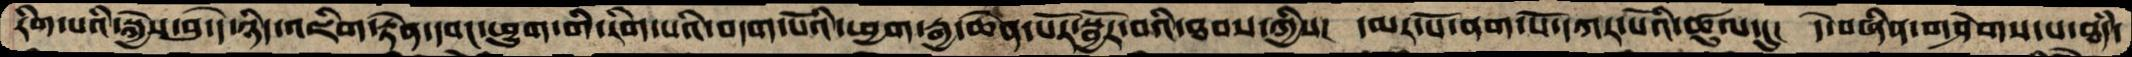རིག་པའི་སྐྱེས་བུ་དེ་ཉིད་འཇིག་རྟེན་དབང་ཕྱུག་གི་རིག་པའི་བདག་པོའི་ཕྱག་རྒྱ་ཆེན་པོར་སྦྱོར་བའི་ཐབས་ཀྱིས།  དམར་པོ་ནག་པོ་དཀར་པོའི་ཚུལ་དུ།  དེ་བཞིན་གཤེགས་པ་ཐཾད་
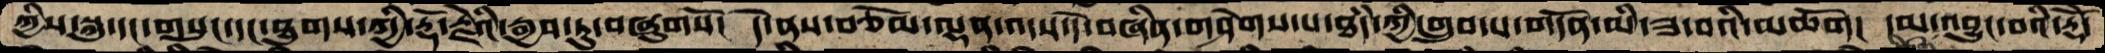ཀྱིས་སྐུ་དང་གསུང་དང་ཐུགས་ཀྱི་རྡོ་རྗེའི་རྒྱབ་ཏུ་བཞུགསོ།  དེ་ནས་བཅོམ་ལྡན་འདས་དེ་བཞིན་གཤེགས་པ་ཐཾད་ཀྱི་གྲུབ་པ་གདོན་མི་ཟ་བའི་མཆོག།  དམ་འབྱུང་བའི་རྡོེ་
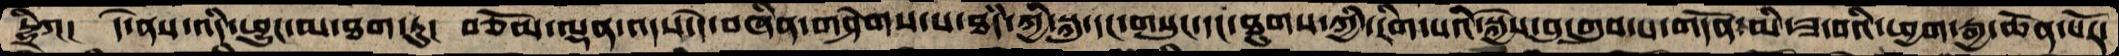དྷྲིཀ།  དེ་ནས་འདི་ཕྱུང་མ་ཐག་ཏུ།  བཅོམ་ལྡན་འདས་དེ་བཞིན་གཤེགས་པ་ཐཾད་ཀྱི་སྐུ་དང་གསུང་དང་ཐུགས་ཀྱི་རིག་པའི་སྐྱེས་བུ་གྲུབ་པ་གདོན་མི་ཟ་བའི་ཕྱག་རྒྱ་ཆེན་པོར་
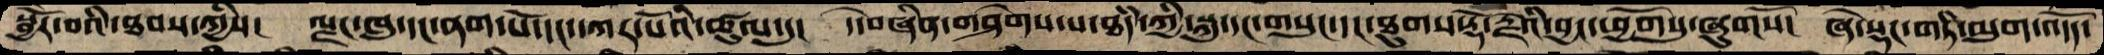སྦྱོར་བའི་ཐབས་ཀྱིས།  ལྗང་ཁུ་དང་ནག་པོ་དང་དཀར་པོའི་ཚུལ་དུ།  དེ་བཞིན་གཤེགས་པ་ཐཾད་ཀྱི་སྐུ་དང་གསུང་དང་ཐུགས་རྡོ་རྗེའི་བྱང་ཕྱོགསུ་ཞུགསོ།  ཞེ་སྡང་གཏི་མུག་འདོད་
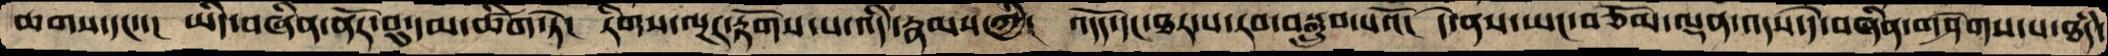ཆགས་དང་་།  ཡིད་བཞིན་ནོར་བུ་དམ་ཚིག་ཏེ།  རིགས་ལྔར་རྟོགས་པ་འདི་རྣམས་ཀྱི།  འདོད་དང་ཐར་པ་རབ་བསྒྲུབ་པའོ།  དེ་ནས་ཡང་བཅོམ་ལྡན་འདས་དེ་བཞིན་གཤེགས་པ་ཐཾད་
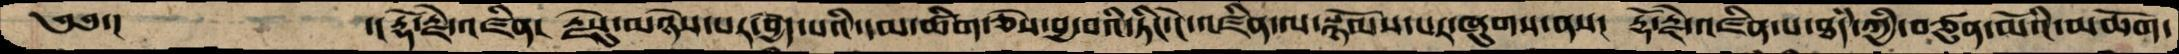༄༅་།          ་།རྡོ་རྗེ་འཛིན།  རྗེསུ་མཉེས་པར་བྱེད་པའི་དམ་ཚིག་ཅེས་བྱ་བའི་ཏིང་ངེ་འཛིན་ལ་སྙོམས་པར་ཞུགས་ནས།  རྡོ་རྗེ་འཛིན་པ་ཐཾད་ཀྱི་བཙུན་མོའི་མཆོག་
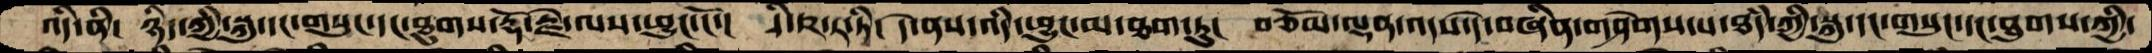འདི་ནི།  ཉིད་ཀྱི་སྐུ་དང་གསུང་དང་ཐུགས་རྡོ་རྗེ་ལས་ཕྱུང་ངོ་།  དྭི་ཥ་ར་ཏྭི།  དེ་ནས་འདི་ཕྱུང་མ་ཐག་ཏུ།  བཅོམ་ལྡན་འདས་དེ་བཞིན་གཤེགས་པ་ཐཾད་ཀྱི་སྐུ་དང་གསུང་དང་ཐུགས་ཀྱི་
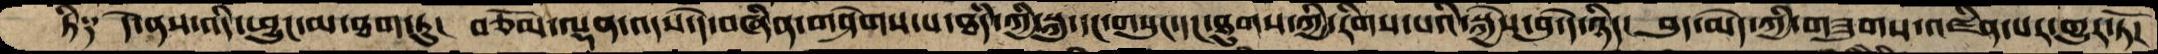ཏི༑  དེ་ནས་འདི་ཕྱུང་མ་ཐག་ཏུ།  བཅོམ་ལྡན་འདས་དེ་བཞིན་གཤེགས་པ་ཐཾད་ཀྱི་སྐུ་དང་གསུང་དང་ཐུགས་ཀྱི་རིགས་པའི་སྐྱེས་བུ་དེ་ཉིད།  བུད་མེད་ཀྱི་གཟུགས་འཛིན་པར་གྱུར་ཏོ།
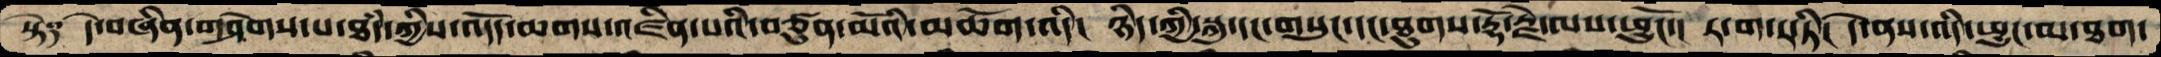སྟེ༑  དེ་བཞིན་གཤེགས་པ་ཐཾད་ཀྱིས་འདོད་ཆགས་འཛིན་པའི་བཙུན་མོའི་མཆོག་འདི། ཉིད་ཀྱི་སྐུ་དང་གསུང་དང་ཐུགས་རྡོ་རྗེ་ལས་ཕྱུངོ་། ར་ག་ར་ཏི། དེ་ནས་འདི་ཕྱུང་མ་ཐག་
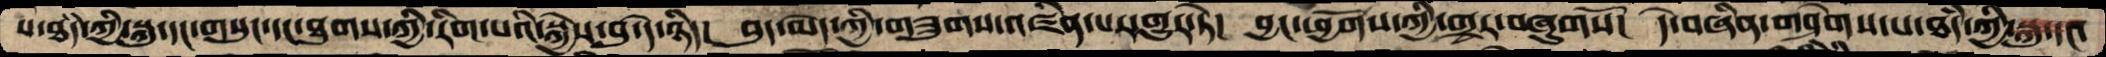པ་ཐཾད་ཀྱི་སྐུ་དང་གསུང་དང་ཐུགས་ཀྱི་རིག་པའི་སྐྱེས་བུ་དེ་ཉིད།  བུད་མེད་ཀྱི་གཟུགས་འཛིན་པར་གྱུར་ཏེ།  བྱང་ཕྱོགས་ཀྱི་གྲྭར་བཞུགསོ།  དེ་བཞིན་གཤེགས་པ་ཐཾད་ཀྱི་སྐུ་དང་
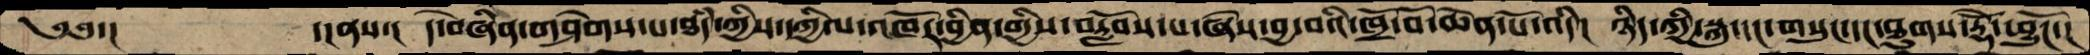༄༅་།         ་།ནས་།  དེ་བཞིན་གཤེགས་པ་ཐཾད་ཀྱིས་དཀྱིལ་འཁོར་བྱིན་གྱིས་བརློབས་པ་ཞེས་བྱ་བའི་ཁྲོ་བོ་ཆེན་པོ་འདི།  ཉིད་ཀྱི་སྐུ་དང་གསུང་དང་ཐུགས་རྡོེ་ཕྱུངོ་།
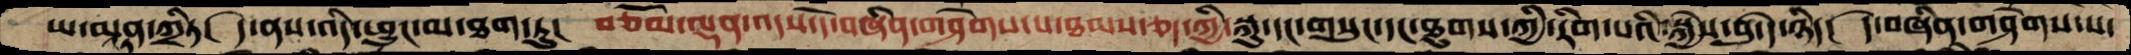ཡ་མཱནྟ་ཀྲིཏ།  དེ་ནས་འདི་ཕྱུང་མ་ཐག་ཏུ།  བཅོམ་ལྡན་འདས་དེ་བཞིན་བཤེགས་པ་ཐམས་ཅད་ཀྱི་སྐུ་དང་གསུང་དང་ཐུགས་ཀྱི་རིག་པའི་སྐྱེས་བུ་དེ་ཉིད།  དེ་བཞིན་གཤེགས་པ་
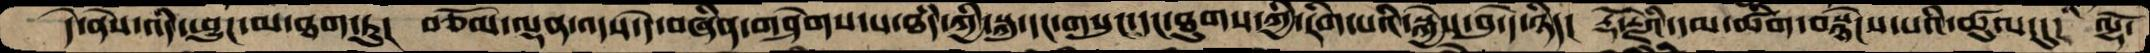དེ་ནས་འདི་ཕྱུང་མ་ཐག་ཏུ།  བཅོམ་ལྡན་འདས་དེ་བཞིན་གཤེགས་པ་ཐཾད་ཀྱི་སྐུ་དང་གསུང་དང་ཐུགས་ཀྱི་རིག་པའི་སྐྱེས་བུ་དེ་ཉིད།  རྡོ་རྗེའི་དམ་ཚིག་བསྙེངས་པའི་ཚུལ་དུ་  ལྷོ་
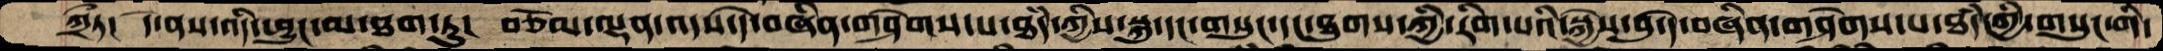ཀྲྀཏ།  དེ་ནས་འདི་ཕྱུང་མ་ཐག་ཏུ།  བཅོམ་ལྡན་འདས་དེ་བཞིན་གཤེགས་པ་ཐཾད་ཀྱིས་སྐུ་དང་གསུང་དང་ཐུགས་ཀྱི་རིག་པའི་སྐྱེས་བུ་དེ་བཞིན་གཤེགས་པ་ཐཾད་ཀྱི་གསུང་གི་
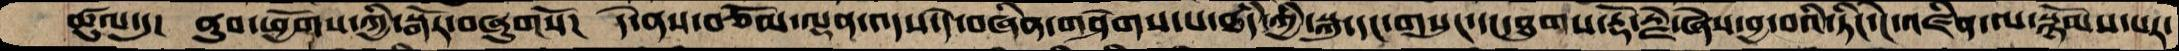ཚུལ་དུ།  ནུབ་ཕྱོགས་ཀྱི་སྒོར་བཞུགསོ།  དེ་ནས་བཅོམ་ལྡན་འདས་དེ་བཞིན་གཤེགས་པ་ཐཾད་ཀྱི་སྐུ་དང་གསུང་དང་ཐུགས་རྡོ་རྗེ་ཞེས་བྱ་བའི་ཏིང་ངེ་འཛིན་ལ་སྙོམས་པར་
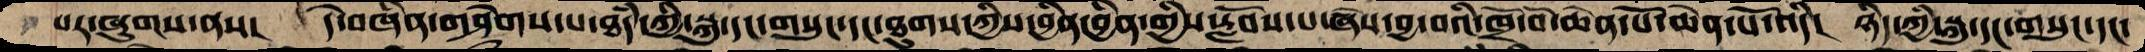པར་ཞུགས་ནས།  དེ་བཞིན་གཤེགས་པ་ཐཾད་ཀྱི་སྐུ་དང་གསུང་དང་ཐུགས་ཀྱིས་བྱིན་བྱིན་གྱིས་རློབས་པ་ཞེས་བྱ་བའི་ཁྲོ་བོ་ཆེན་པོ་ཆེན་པོ་འདི།  ཉིད་ཀྱི་སྐུ་དང་གསུང་དང་
